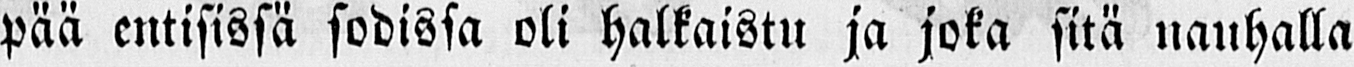pää entisissä sodissa oli halkaistu ja joka sitä nauhalla
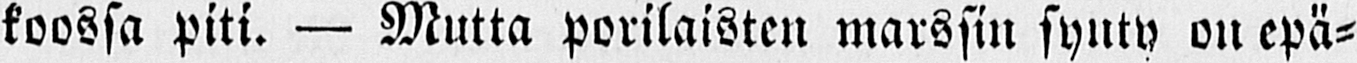koossa piti. — Mutta porilaisten marssin synty on epä-
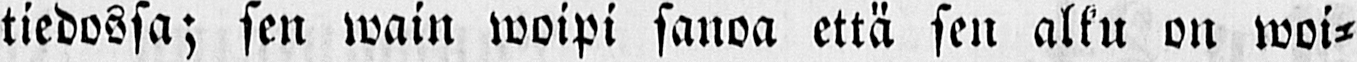tiedossa; sen wain woipi sanoa että sen alku on woi-
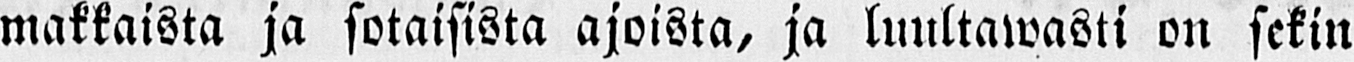makkaista ja sotaisista ajoista, ja luutawasti on sekin
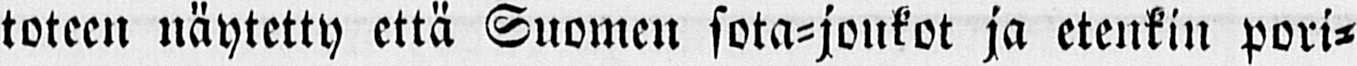toteen näytetty että Suomen sota-joukot ja etenkin pori-
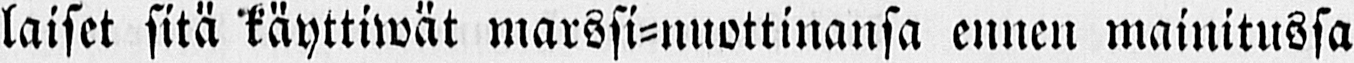laiset sitä käyttiwät marssi-nuottinansa ennen mainitussa
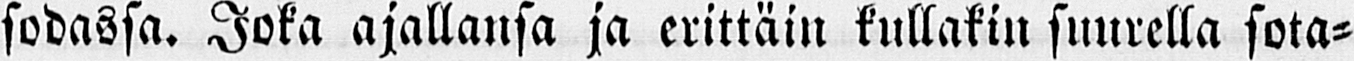sodassa. Joka ajallansa ja erittäin kullakin suurella sota-
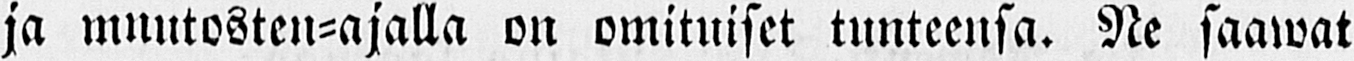ja muutosten-ajalla on omituiset tunteensa. Ne saawat
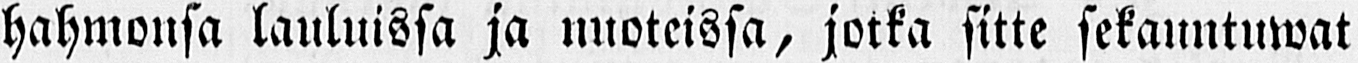hahmonsa lauluissa ja nuoteissa, jotka sitte sekauntuwat
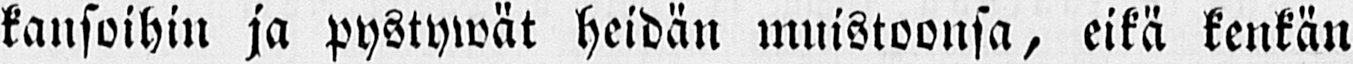kansoihin ja pystywät heidän muistoonsa, eikä kenkän
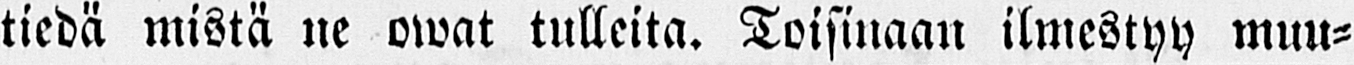tiedä mistä ne owat tulleita. Toisinaan ilmestyy muu-
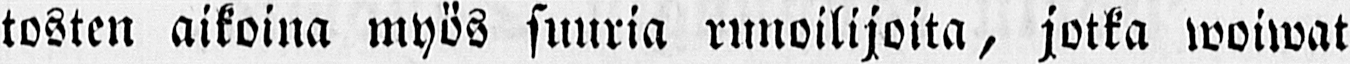tosten aikoina myös suuria runoilijoita, jotka woiwat
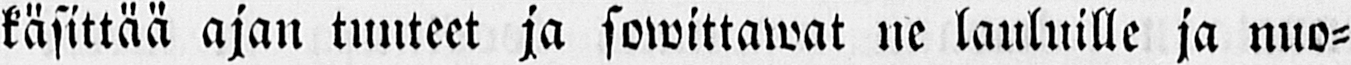käsittää ajan tunteet ja sowittawat ne lauluille ja nuo-
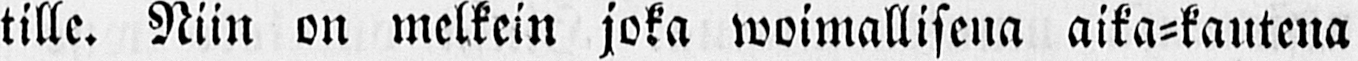tille. Niin on melkein joka woimallisena aika-kautena
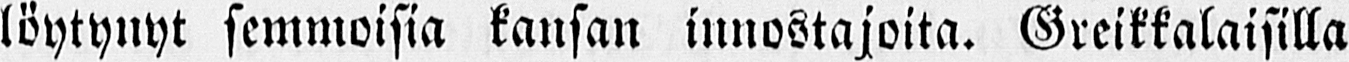löytynyt semmoisia kansan innostajoita. Greikkalaisilla
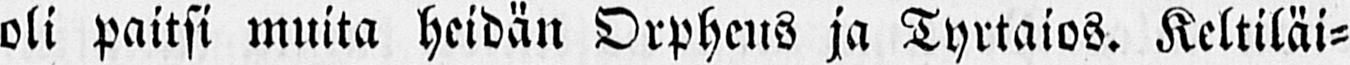oli paitsi muita heidän Orpheus ja Tyrtaios. Keltiläi-
